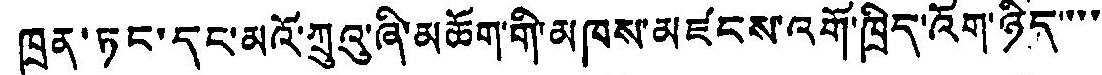ཁྲན་ཏང་དང་མའོ་ཀྲུའུ་ཞི་མཆོག་གི་མཁས་མཛངས་འགོ་ཁྲིད་འོག་ཉིད་་་་
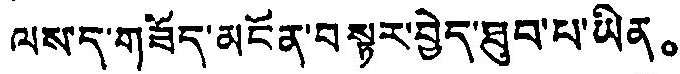ལས་ད་གཟོད་མངོན་བསྟར་བྱེད་ཐུབ་པ་ཡིན。
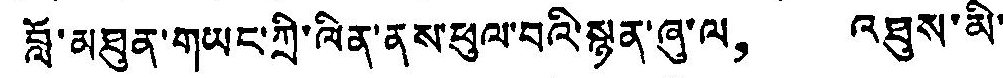བློ་མཐུན་གཡང་ཀྲི་ལིན་ནས་ཕུལ་བའི་སྙན་ཞུ་ལ， འཐུས་མི་
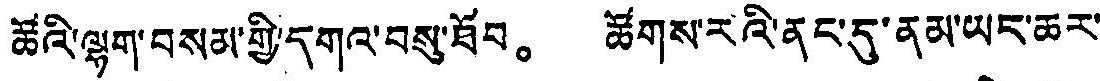ཚོའི་ལྷག་བསམ་གྱི་དགའ་བསུ་ཐོབ。 ཚོགས་རའི་ནང་དུ་ནམ་ཡད་ཆར་
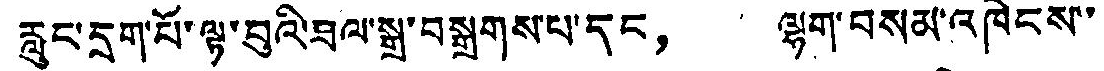རླུང་དྲག་པོ་ལྟ་བུའི་ཐལ་སྒྲ་བསྒྲགས་པ་དང， ལྷག་བསམ་འཁེངས་་
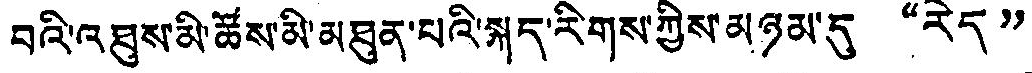བའི་འཐུས་མི་ཚོས་མི་མཐུན་པའི་སྐད་རིགས་ཀྱིས་མཉམ་དུ “རེད”
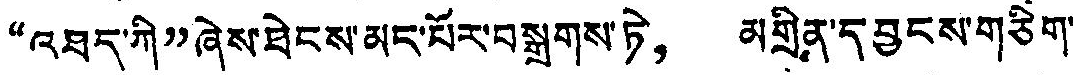“འཐད་ཀི”ཞེས་ཐེངས་མང་པོར་བསྒྲགས་ཏེ， མགྲིན་དབྱངས་གཅིག་
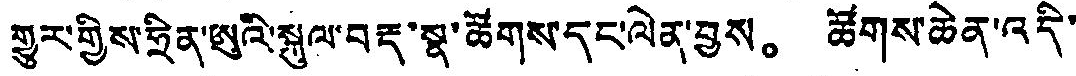གྱུར་གྱིས་ཧྲིན་ཨུའི་སྐུལ་བརྡ་སྣ་ཚོགས་དང་ལེན་བྱས。 ཚོགས་ཆེན་འདི་
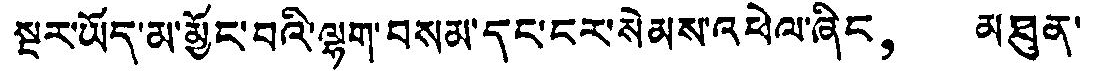སྔར་ཡོད་མ་མྱོང་བའི་ལྷག་བསམ་དང་ངར་སེམས་འཕེལ་ཞིང， མཐུན་
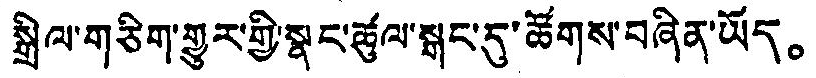སྒྲིལ་གཅིག་གྱུར་གྱི་སྣང་ཚུལ་སྒང་དུ་ཚོགས་བཞིན་ཡོད。
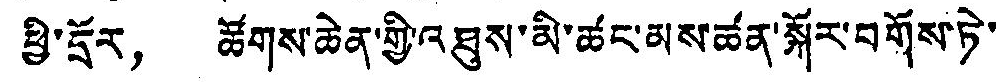ཕྱི་དྲོར， ཚོགས་ཆེན་གྱི་འཐུས་མི་ཚང་མས་ཚན་སྐོར་བགོས་ཏེ་
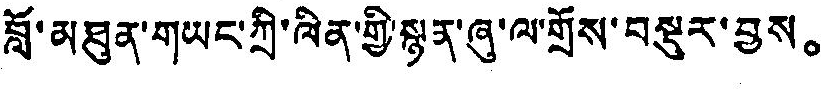བློ་མཐུན་གཡང་ཀྲི་ལིན་གྱི་སྙན་ཞུ་ལ་གྲོས་བསྡུར་བྱས。
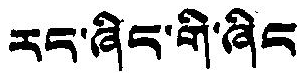རང་ཞིང་གི་ཞིང་
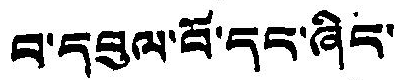བ་དབུལ་བོ་དང་ཞིང་
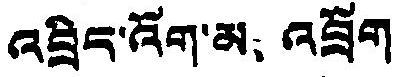འབྲིད་འོག་མ、འབྲོག
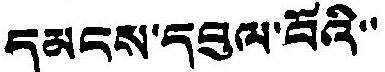དམངས་དབུལ་བོའི་་
